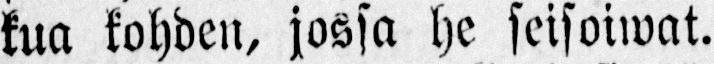kua kohden, jossa he seisoiwat.
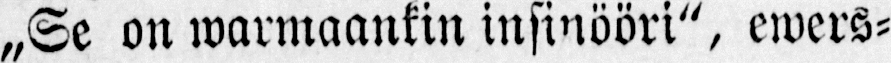„Se on warmaankin insinööri", ewers-
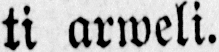ti arweli.
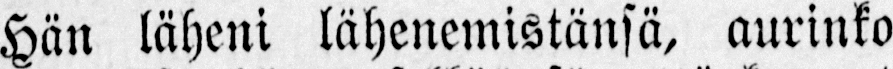Hän läheni lähenemistänsä, aurinko
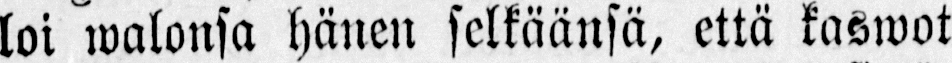loi walonsa hänen selkäänsä, että kaswot
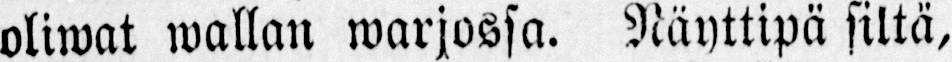oliwat wallan warjossa. Näyttipä siltä,
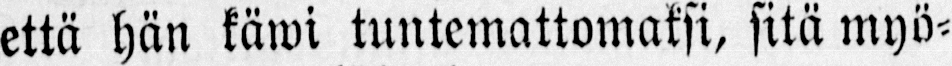että hän käwi tuntemattomaksi, sitä myö-
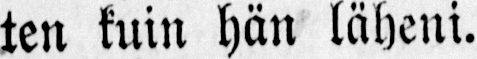ten kuin hän läheni.
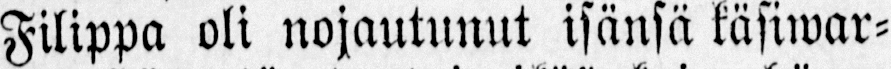Filippa oli nojautunut isänsä käsiwar-
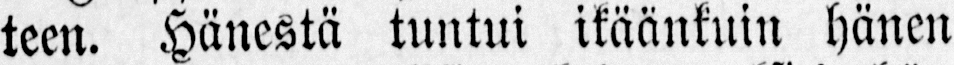teen. Hänestä tuntui ikäänkuin hänen
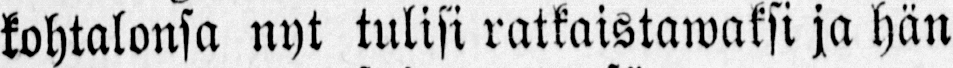kohtalonsa nyt tulisi ratkaistawaksi ja hän
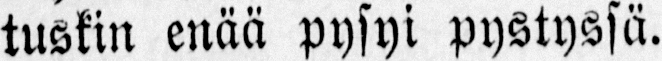tuskin enää pysyi pystyssä.
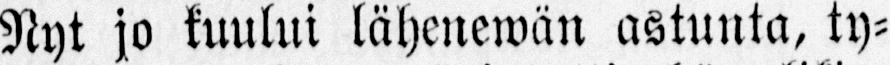Nyt jo kuului lähenewän astunta, ty-
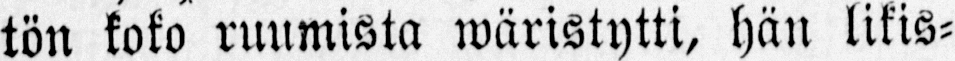tön koko ruumista wäristytti, hän likis-
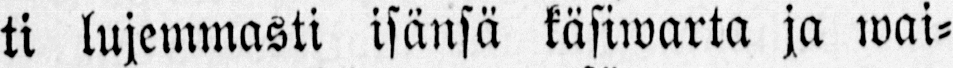ti lujemmasti isänsä käsiwarta ja wai-
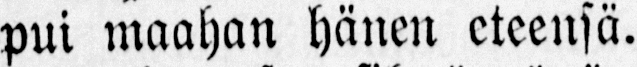pui maahan hänen eteensä.
